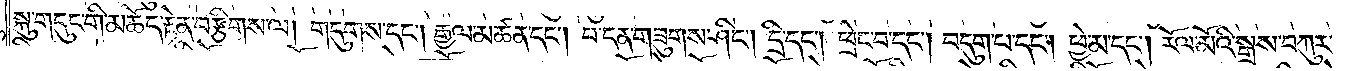སྐུ་གདུང་གི་མཆོད་རྟེན་བརྩིགས་ལ། གདུགས་དང༌། རྒྱལ་མཚན་དང༌། བ་དན་གཟུགས་ཤིང༌། དྲི་དང༌། ཕྲེང་བ་དང༌། བདུག་པ་དང༌། ཕྱེ་མ་དང༌། རོལ་མོའི་སྒྲས་བཀུར་
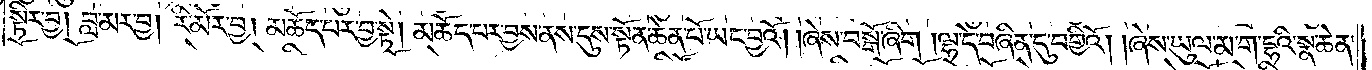སྟིར་བྱ། བླ་མར་བྱ། རི་མོར་བྱ། མཆོད་པར་བྱ་སྟེ། མཆོད་པར་བྱས་ནས་དུས་སྟོན་ཆེན་པོ་ཡང་བྱའོ། །ཞེས་བསྒོ་ཞིག །ལྷ་དེ་བཞིན་དུ་བགྱིའོ། །ཞེས་ཡུལ་མ་ག་དྷའི་སྣ་ཆེན་
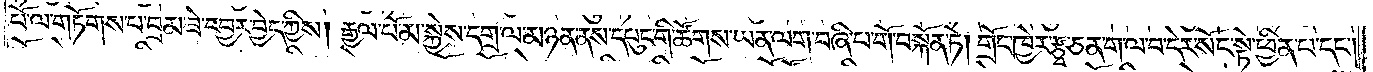པོ་ལ་གཏོགས་པ་བྲམ་ཟེ་དབྱར་བྱེད་ཀྱིས། རྒྱལ་པོ་མ་སྐྱེས་དགྲ་ལ་མཉན་ནས་དཔུང་གི་ཚོགས་ཡན་ལག་བཞི་པ་གོ་བསྐོན་ཏེ། གྲོང་ཁྱེར་རྩྭ་ཅན་ག་ལ་བ་དེར་སོང་སྟེ་ཕྱིན་པ་དང༌།
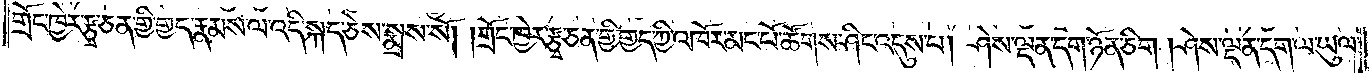གྲོང་ཁྱེར་རྩྭ་ཅན་གྱི་གྱད་རྣམས་ལ་འདི་སྐད་ཅེས་སྨྲས་སོ། །གྲོང་ཁྱེར་རྩྭ་ཅན་གྱི་གྱད་ཀྱི་འཁོར་མང་པོ་ཚོགས་ཤིང་འདུས་པ། ཤེས་ལྡན་དག་ཉོན་ཅིག །ཤེས་ལྡན་དག་ལ་ཡུལ་
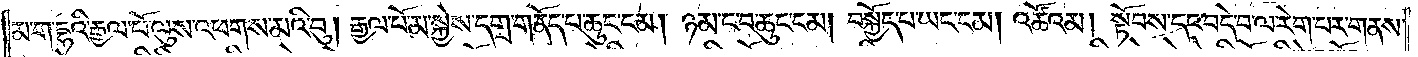མ་ག་དྷའི་རྒྱལ་པོ་ལུས་འཕགས་མའི་བུ། རྒྱལ་པོ་མ་སྐྱེས་དགྲ་གནོད་པ་ཆུང་ངམ། ཉམ་ང་བ་ཆུང་ངམ། བསྐྱོད་པ་ཡང་ངམ། འཚོའམ། སྟོབས་དང་བདེ་བ་ལ་རེག་པར་གནས་
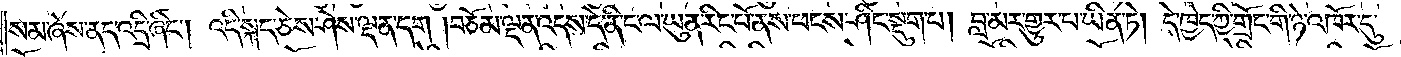སམ་ཞེས་ནད་འདྲི་ཞིང༌། འདི་སྐད་ཅེས་ཤེས་ལྡན་དག །བཅོམ་ལྡན་འདས་དེ་ནི་ང་ལ་ཡུན་རིང་པོ་ནས་ཕངས་ཤིང་སྡུག་པ། བླ་མར་གྱུར་པ་ཡིན་ཏེ། དེ་ཁྱེད་ཀྱི་གྲོང་གི་ཉེ་འཁོར་དུ་
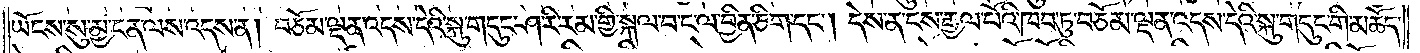ཡོངས་སུ་མྱ་ངན་ལས་འདས་ན། བཅོམ་ལྡན་འདས་དེའི་སྐུ་གདུང་ཤ་རི་རམ་གྱི་སྐལ་བ་ང་ལ་བྱིན་ཅིག་དང༌། དེས་ན་ངས་རྒྱལ་པོའི་ཁབ་ཏུ་བཅོམ་ལྡན་འདས་དེའི་སྐུ་གདུང་གི་མཆོད་
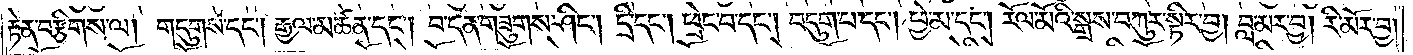རྟེན་བརྩིགས་ལ། གདུགས་དང༌། རྒྱལ་མཚན་དང༌། བ་དན་གཟུགས་ཤིང༌། དྲི་དང༌། ཕྲེང་བ་དང༌། བདུག་པ་དང༌། ཕྱེ་མ་དང༌། རོལ་མོའི་སྒྲས་བཀུར་སྟིར་བྱ། བླ་མར་བྱ། རི་མོར་བྱ་
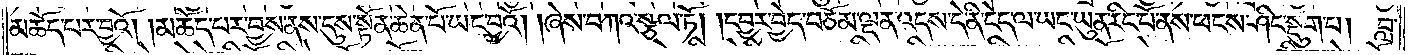མཆོད་པར་བྱའོ། །མཆོད་པར་བྱས་ནས་དུས་སྟོན་ཆེན་པོ་ཡང་བྱའོ། །ཞེས་བཀའ་སྩལ་ཏོ། །དབྱར་བྱེད་བཅོམ་ལྡན་འདས་དེ་ནི་ངེད་ལ་ཡང་ཡུན་རིང་པོ་ནས་ཕངས་ཤིང་སྡུག་པ། བླ་
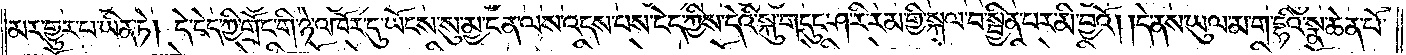མར་གྱུར་པ་ཡིན་ཏེ། དེ་ངེད་ཀྱི་གྲོང་གི་ཉེ་འཁོར་དུ་ཡོངས་སུ་མྱ་ངན་ལས་འདས་པས་ངེད་ཀྱིས་དེའི་སྐུ་གདུང་ཤ་རི་རམ་གྱི་སྐལ་བ་སྦྱིན་པར་མི་བྱའོ། །དེ་ནས་ཡུལ་མ་ག་དྷའི་སྣ་ཆེན་པོ་
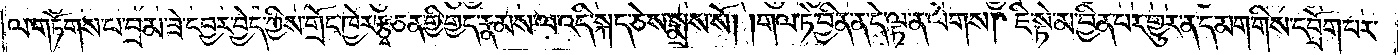ལ་གཏོགས་པ་བྲམ་ཟེ་དབྱར་བྱེད་ཀྱིས་གྲོང་ཁྱེར་རྩྭ་ཅན་གྱི་གྱད་རྣམས་ལ་འདི་སྐད་ཅེས་སྨྲས་སོ། །གལ་ཏེ་བྱིན་ན་དེ་ལྟ་ན་ལེགས། ཇི་སྟེ་མ་བྱིན་པར་གྱུར་ན་དམག་གིས་དབྲོག་པར་
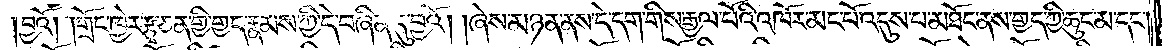།བྱའོ། །གྲོང་ཁྱེར་རྩྭ་ཅན་གྱི་གྱད་རྣམས་ཀྱི་དེ་བཞིན་དུ་བྱའོ། །ཞེས་མཉན་ནས་དེ་དག་གིས་རྒྱལ་པོའི་འཁོར་མང་པོ་འདུས་པ་མཐོང་ནས་གྱད་ཀྱི་ཆུང་མ་དང༌།
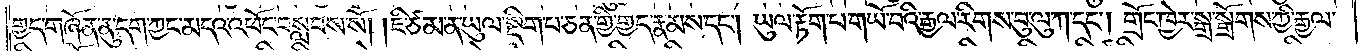གྱད་གཞོན་ནུ་དག་ཀྱང་མདའ་འཕོང་བསླབས་སོ། །ཇི་ཙམ་ན་ཡུལ་སྡིག་པ་ཅན་གྱི་གྱད་རྣམས་དང༌། ཡུལ་རྟོག་པ་གཡོ་བའི་རྒྱལ་རིགས་བུ་ལུ་ཀ་དང༌། གྲོང་ཁྱེར་སྒྲ་སྒྲོགས་ཀྱི་རྒྱལ་
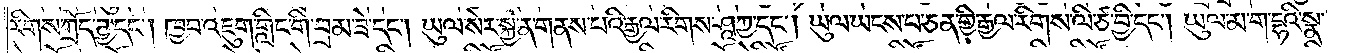རིགས་ཀྲོད་ཊྱ་དང༌། ཁྱབ་འཇུག་གླིང་གི་བྲམ་ཟེ་དང༌། ཡུལ་སེར་སྐྱ་ན་གནས་པའི་རྒྱལ་རིགས་ཤཱཀྱ་དང༌། ཡུལ་ཡངས་པ་ཅན་གྱི་རྒྱལ་རིགས་ལི་ཙ་བྱི་དང༌། ཡུལ་མ་ག་དྷའི་སྣ་
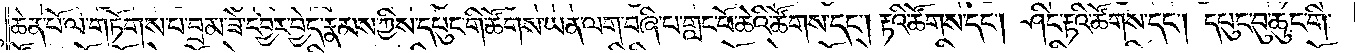ཆེན་པོ་ལ་གཏོགས་པ་བྲམ་ཟེ་དབྱར་བྱེད་རྣམས་ཀྱིས་དཔུང་གི་ཚོགས་ཡན་ལག་བཞི་པ་གླང་པོ་ཆེའི་ཚོགས་དང༌། རྟའི་ཚོགས་དང༌། ཤིང་རྟའི་ཚོགས་དང༌། དཔུང་བུ་ཆུང་གི་
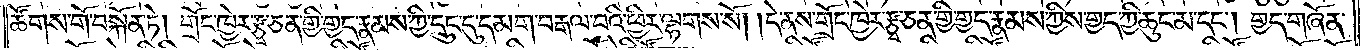ཚོགས་གོ་བསྐོན་ཏེ། གྲོང་ཁྱེར་རྩྭ་ཅན་གྱི་གྱད་རྣམས་ཀྱི་དྲུང་དུ་དམག་བརྒལ་བའི་ཕྱིར་ལྷགས་སོ། །དེ་ནས་གྲོང་ཁྱེར་རྩྭ་ཅན་གྱི་གྱད་རྣམས་ཀྱིས་གྱད་ཀྱི་ཆུང་མ་དང༌། གྱད་གཞོན་
